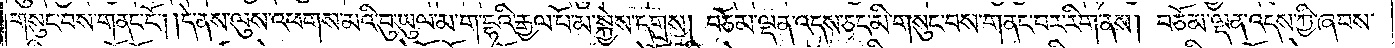གསུང་བས་གནང་ངོ༌། །དེ་ནས་ལུས་འཕགས་མའི་བུ་ཡུལ་མ་ག་དྷའི་རྒྱལ་པོ་མ་སྐྱེས་དགྲས། བཅོམ་ལྡན་འདས་ཅང་མི་གསུང་བས་གནང་བར་རིག་ནས། བཅོམ་ལྡན་འདས་ཀྱི་ཞབས་
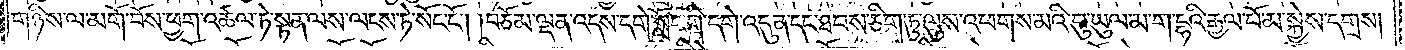གཉིས་ལ་མགོ་བོས་ཕྱག་འཚལ་ཏེ་སྟན་ལས་ལངས་ཏེ་སོང་ངོ༌། །བཅོམ་ལྡན་འདས་དགེ་སློང་གི་དགེ་འདུན་དང་ཐབས་ཅིག་ཏུ་ལུས་འཕགས་མའི་བུ་ཡུལ་མ་ག་དྷའི་རྒྱལ་པོ་མ་སྐྱེས་དགྲས།
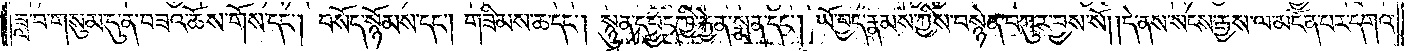ཟླ་བ་གསུམ་དུ་ན་བཟའ་ཆོས་གོས་དང༌། བསོད་སྙོམས་དང༌། གཟིམས་དང༌། སྙུན་དཔྱད་ཀྱི་རྐྱེན་སྨན་དང༌། ཡོ་བྱད་རྣམས་ཀྱིས་བསྙེན་བཀུར་བྱས་སོ། །དེ་ནས་སངས་རྒྱས་ལ་མངོན་པར་དགའ་
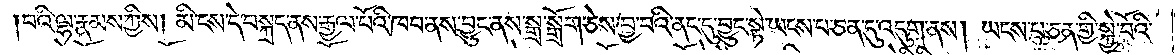།བའི་ལྷ་རྣམས་ཀྱིས། མི་ངས་དེ་བསྐྲད་ནས་རྒྱལ་པོའི་ཁབ་ནས་བྱུང་ནས་སྒྲ་སྒྲོག་ཅེས་བྱ་བའི་ནང་དུ་བྱུང་སྟེ་ཡངས་པ་ཅན་དུ་འདུག་ནས། ཡངས་པ་ཅན་གྱི་སྐྱེ་བོའི་
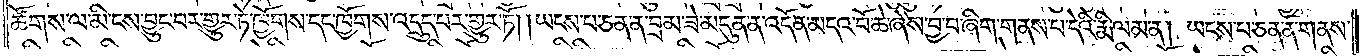ཚོགས་ལ་མི་ངས་བྱུང་བར་གྱུར་ཏེ་ཁྱོགས་དང་ཁྱོགས་འདྲུད་པར་གྱུར་ཏོ། །ཡངས་པ་ཅན་ན་བྲམ་ཟེ་མདུན་ན་འདོན་མདའ་བོ་ཆེ་ཞེས་བྱ་བ་ཞིག་གནས་པ་དེའི་རྨི་ལམ་ན། ཡངས་པ་ཅན་ན་གནས་
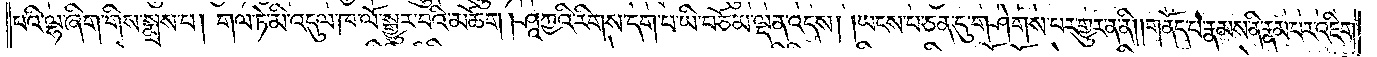པའི་ལྷ་ཞིག་གིས་སྨྲས་པ། གལ་ཏེ་མི་འདུལ་ཁ་ལོ་སྒྱུར་བའི་མཆོག །ཤཱཀྱའི་རིགས་དག་པ་ཡི་བཅོམ་ལྡན་འདས། །ཡངས་པ་ཅན་དུ་གཤེགས་པར་གྱུར་ན་ནི། །གནོད་པ་རྣམས་ནི་རྣམ་པར་འཇིག་
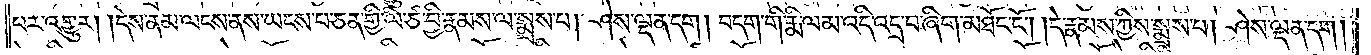པར་འགྱུར། །དེས་ནམ་ལངས་ནས་ཡངས་པ་ཅན་གྱི་ལི་ཙ་བྱི་རྣམས་ལ་སྨྲས་པ། ཤེས་ལྡན་དག །བདག་གི་རྨི་ལམ་འདི་འདྲ་བ་ཞིག་མཐོང་ངོ༌། །དེ་རྣམས་ཀྱིས་སྨྲས་པ། ཤེས་ལྡན་དག།
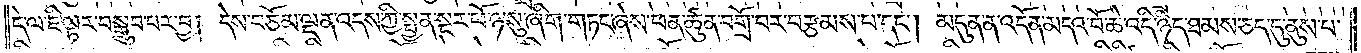དེ་ལ་ཇི་ལྟར་བསྒྲུབ་པར་བྱ། དེས་བཅོམ་ལྡན་འདས་ཀྱི་སྤྱན་སྔར་ཕོ་ཉ་སུ་ཞིག་གཏང་ཞེས་ཕན་ཚུན་བགྲོ་བར་བརྩམས་པ་དང༌། མདུན་ན་འདོན་དམའ་བོ་ཆེ་འདི་ཉིད་ཐམས་ཅད་དུ་ནུས་པ་
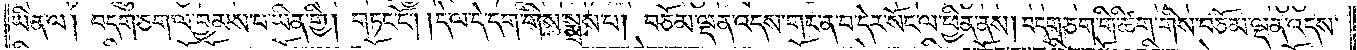ཡིན་ལ། བདག་ཅག་ལ་བྱམས་པ་ཡིན་གྱི། གཏང་ངོ༌། །དེ་ལ་དེ་དག་གིས་སྨྲས་པ། བཅོམ་ལྡན་འདས་གང་ན་བ་དེར་སོང་ལ་ཕྱིན་ནས། བདག་ཅག་གི་ཚིག་གིས་བཅོམ་ལྡན་འདས་
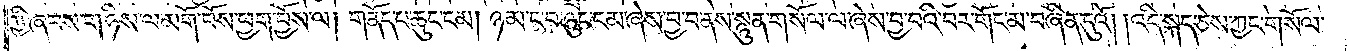ཀྱི་ཞབས་གཉིས་ལ་མགོ་བོས་ཕྱག་བྱོས་ལ། གནོད་པ་ཆུང་ངམ། ཉམ་ང་བ་ཉུང་ངམ་ཞེས་བྱ་བ་ནས་སྙུན་གསོལ་ལ་ཞེས་བྱ་བའི་བར་གོང་མ་བཞིན་དུའོ། །འདི་སྐད་ཅེས་ཀྱང་གསོལ་
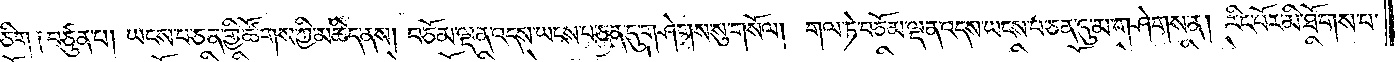ཅིག་༑བཙུན་པ། ཡངས་པ་ཅན་གྱི་ཚོགས་ཀྱི་མཆིད་ནས། བཅོམ་ལྡན་འདས་ཡངས་པ་ཅན་དུ་གཤེགས་སུ་གསོལ། གལ་ཏེ་བཅོམ་ལྡན་འདས་ཡངས་པ་ཅན་དུ་མ་གཤེགས་ན། རིང་པོར་མི་ཐོགས་པ་
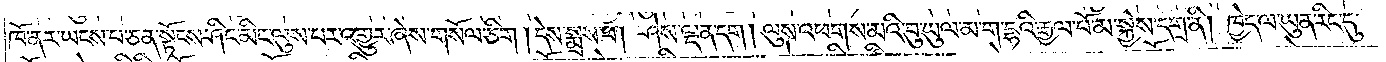ཁོ་ནར་ཡངས་པ་ཅན་སྟོངས་ཤིང་མིང་ལུས་པར་འགྱུར་ཞེས་གསོལ་ཅིག །དེས་སྨྲས་པ། ཤེས་ལྡན་དག །ལུས་འཕགས་མའི་བུ་ཡུལ་མ་ག་དྷའི་རྒྱལ་པོ་མ་སྐྱེས་དགྲ་ནི། ཁྱེད་ལ་ཡུན་རིང་དུ་
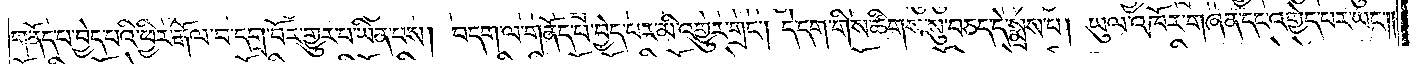གནོད་པ་བྱེད་པའི་ཕྱིར་རྒོལ་བ་དགྲ་བོར་གྱུར་པ་ཡིན་པས། བདག་ལ་གནོད་པ་བྱེད་པར་མི་འགྱུར་གྲང༌། དེ་དག་གིས་ཚིགས་སུ་བཅད་དེ་སྨྲས་པ། ཡུལ་འཁོར་གཞན་དང་འགྱེད་པར་ཡང༌༎
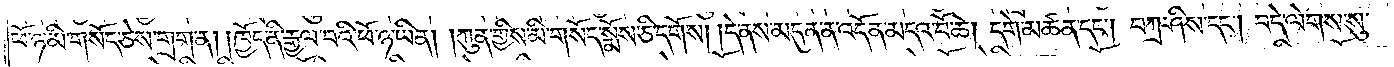ཕོ་ཉ་མི་གསོད་ཅེས་གྲག་ན། །ཁྱོད་ནི་རྒྱལ་བའི་ཕོ་ཉ་ཡིན། །ཀུན་གྱིས་མི་གསོད་སྨོས་ཅི་དགོས། །དེ་ནས་མདུན་ན་འདོན་མདའ་བོ་ཆེ། དགེ་མཚན་དང༌། བཀྲ་ཤིས་དང༌། བདེ་ལེགས་སུ་
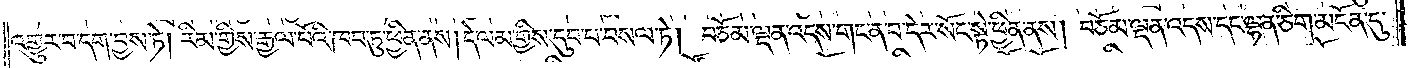འགྱུར་བ་དག་བྱས་ཏེ། རིམ་གྱིས་རྒྱལ་པོའི་ཁབ་ཏུ་ཕྱིན་ནས། དེ་ལམ་གྱིས་དུབ་པ་བསལ་ཏེ། བཅོམ་ལྡན་འདས་གང་ན་བ་དེར་སོང་སྟེ་ཕྱིན་ནས། བཅོམ་ལྡན་འདས་དང་ལྷན་ཅིག་མངོན་དུ་
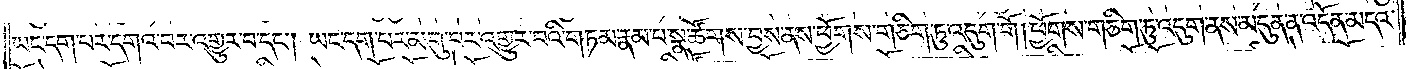ཡང་དག་པར་དགའ་བར་འགྱུར་བ་དང༌། ཡང་དག་པར་མགུ་བར་འགྱུར་བའི་གཏམ་རྣམ་པ་སྣ་ཚོགས་བྱས་ནས་ཕྱོགས་གཅིག་ཏུ་འདུག་གོ། ཕྱོགས་གཅིག་ཏུ་འདུག་ནས་མདུན་ན་འདོན་མདའ་
